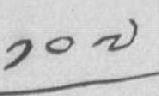༡༠༧
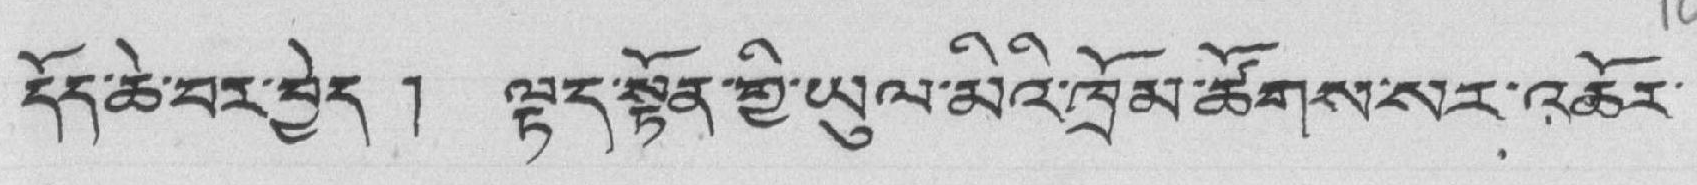དོད་ཆེ་བར་བྱེད ། ལྟད་སྟོན་གྱི་ཡུལ་མིའི་ཁྲོམ་ཚོགས་སར་འཆོར་
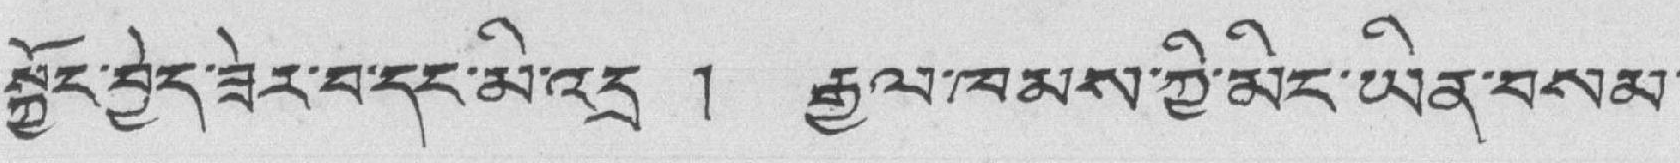སྐྱོང་བྱེད་ཟེར་བ་དང་མི་འདྲ ། རྒྱལ་ཁམས་ཀྱི་མིང་ཡིན་བསམ་
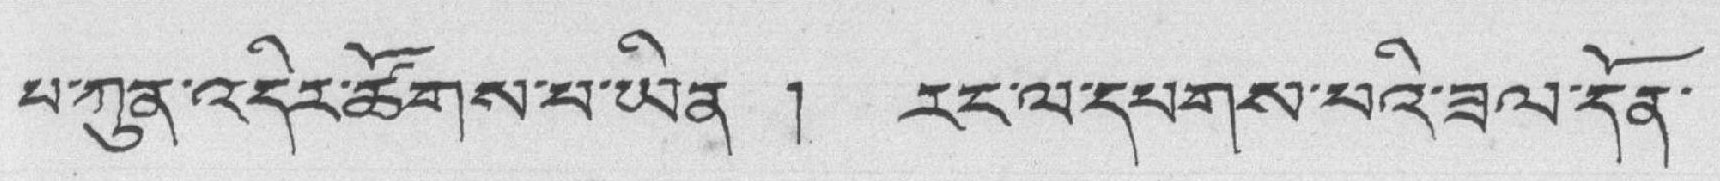པ་ཀུན་འདིར་ཚོགས་པ་ཡིན ། རང་ལ་དཔགས་པའི་ཟལ་དོན་
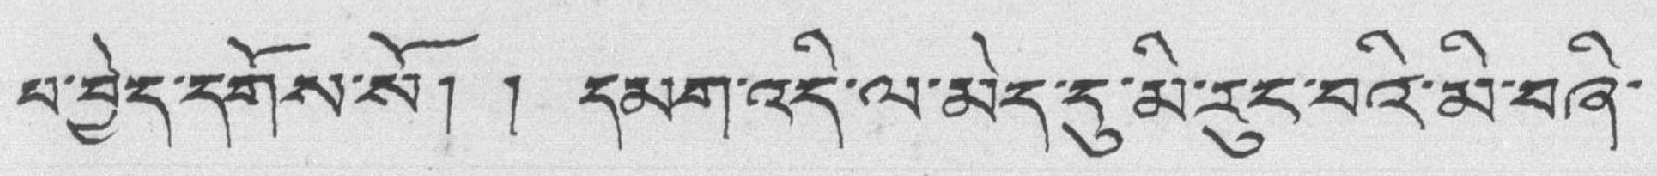པ་བྱེད་དགོས་སོ། ། དམག་འདི་ལ་མེད་དུ་མ་རུང་བའི་མི་བཞི་
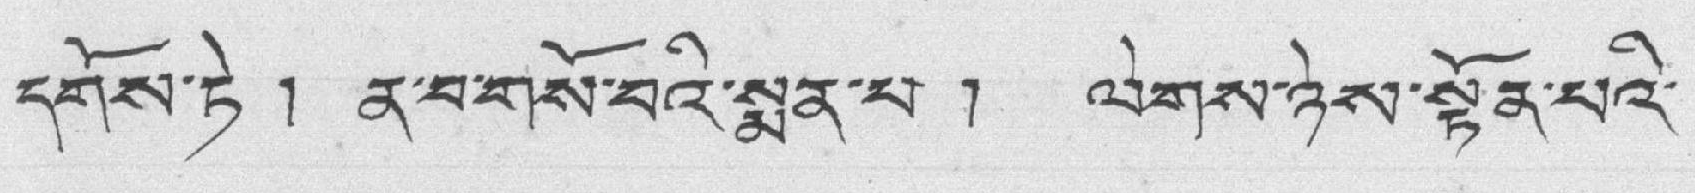དགོས་ཏེ ། ན་བ་གསོ་པའི་སྨན་པ ། ལེགས་ཉེས་སྟོན་པའི་
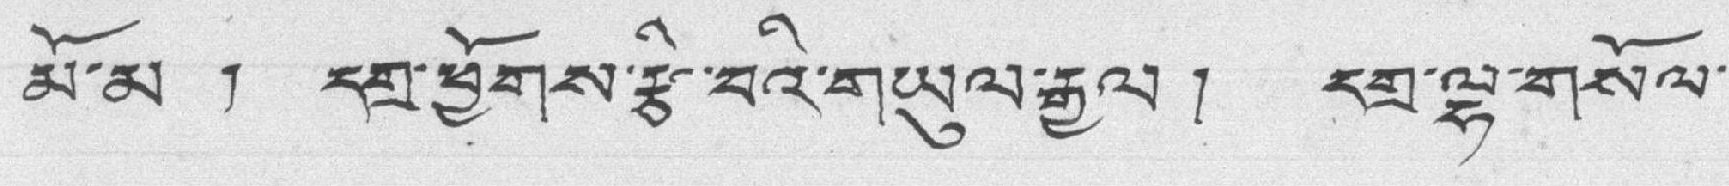མོ་མ ། དགྲ་ཕྱོགས་རྩི་བའི་གཡུལ་རྒྱལ ། དགྲ་ལྷ་གསོལ་
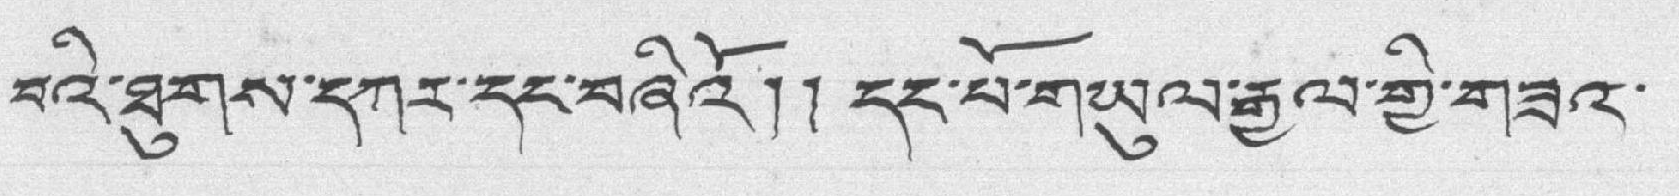བའི་ཐུགས་དཀར་དང་བཞིའོ།། དང་པོ་གཡུལ་རྒྱལ་གྱི་གཟའ་
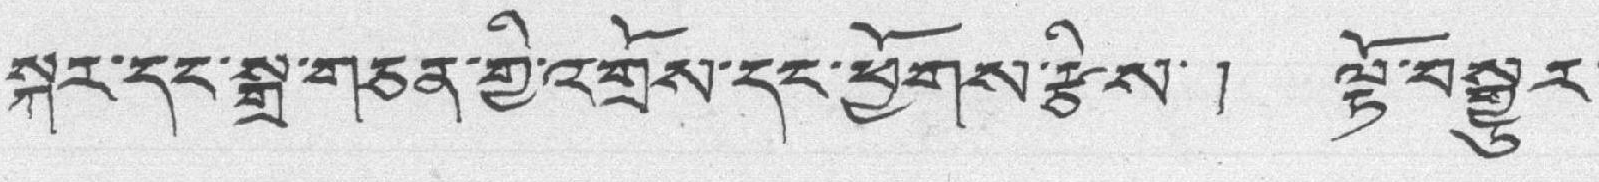སྐར་དང་སྒྲ་གཅན་གྱི་འགྲོས་དང་ཕྱོགས་རྩིས་ ། ལྟོ་བསྒྱུར་
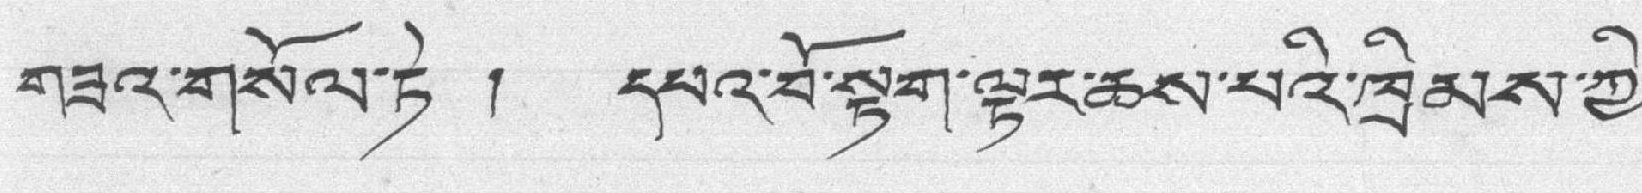གཟའ་གསོལ་ཏེ ། དཔའ་བོ་སྟག་ལྟར་ཆས་པའི་ཁྲིམས་ཀྱི་
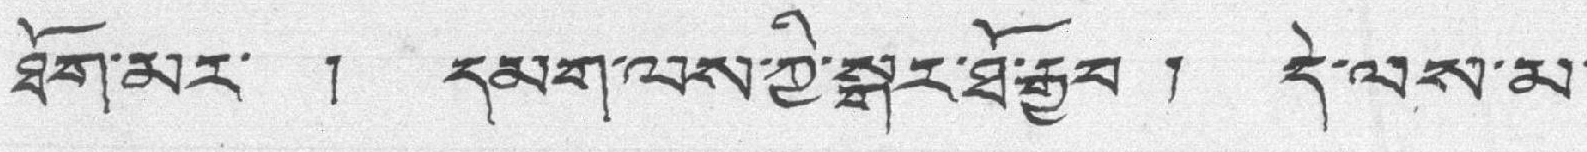ཐོག་མར་ ། དམག་ལས་ཀྱི་སྒར་ཐོ་རྒྱབ ། དེ་ལས་མ་
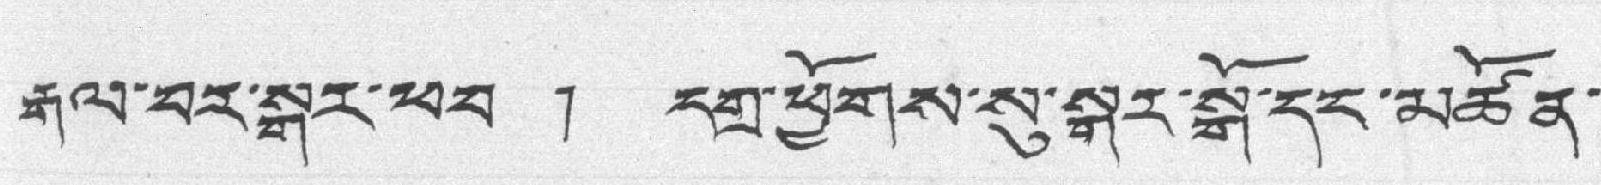རྒལ་བར་སྒར་ཕབ ། དགྲ་ཕྱོགས་སུ་སྒར་སྒོ་དང་མཚོན་
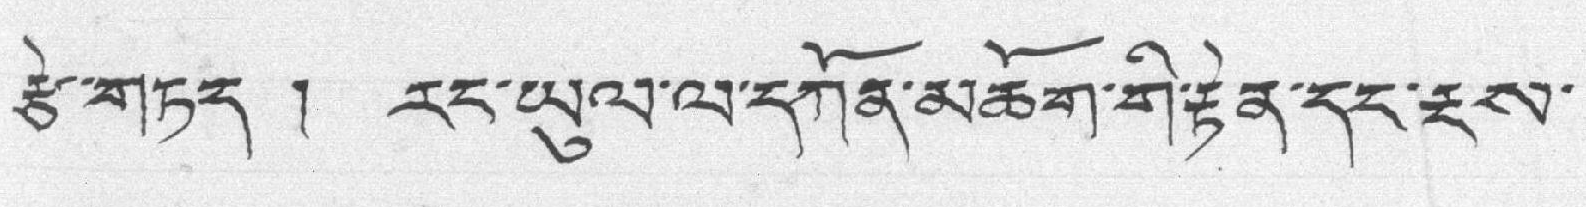རྩེ་གཏད ། རང་ཡུལ་ལ་དཀོན་མཆོག་གི་རྟེན་དང་རྔས་
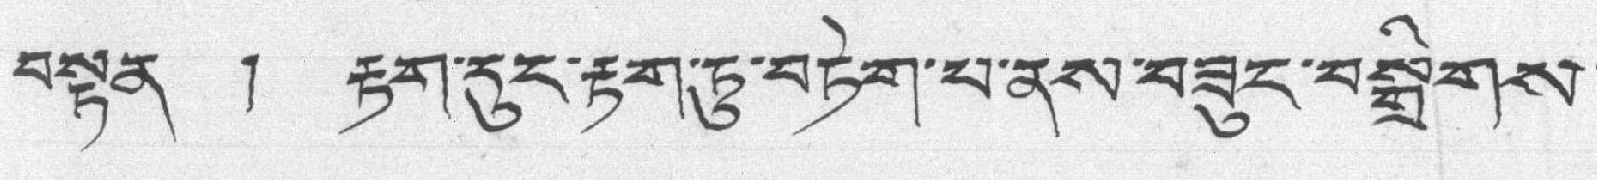བསྟན ། རྟག་དུང་རྟག་ཏུ་བཏེག་པ་ནས་བཟུང་བསྒྲིགས་
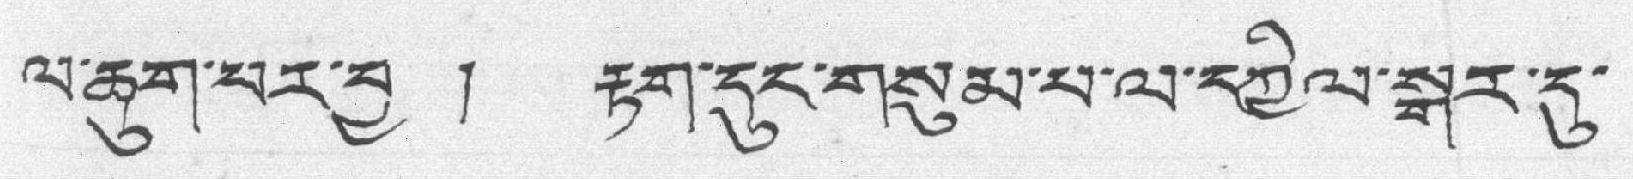ལ་ཆུག་བར་བྱ ། རྟག་དུང་གསུམ་པ་ལ་དཀྱིལ་སྒར་དུ་
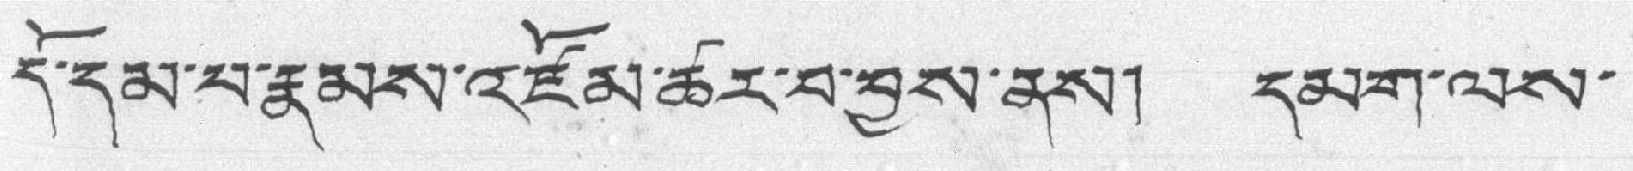དོ་དམ་པ་རྣམས་འཛོམ་ཚར་བ་བྱས་ནས། དམག་ལས་
